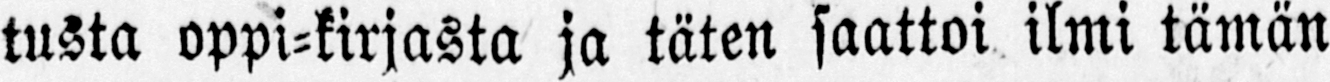tusta oppi-kirjasta ja täten saattoi ilmi tämän
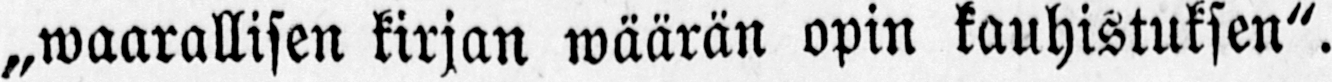„waarallisen kirjan wäärän opin kauhistuksen".
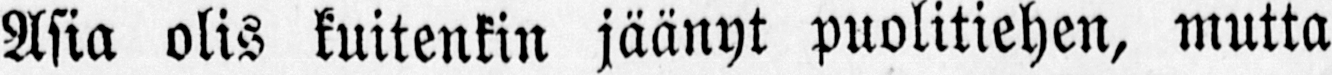Asia olis kuitenkin jäänyt puolitiehen, mutta
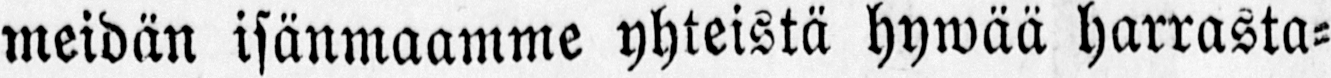meidän isänmaamme yhteistä hywää harrasta-
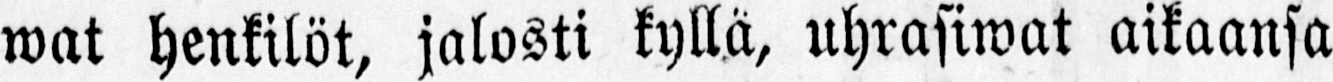wat henkilöt, jalosti kyllä, uhrasiwat aikaansa
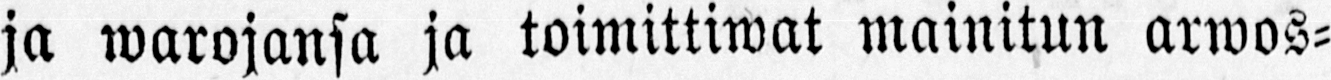ja warojansa ja toimittiwat mainitun arwos-
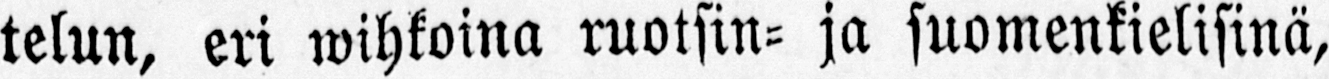telun, eri wihkoina ruotsin- ja suomenkielisinä,
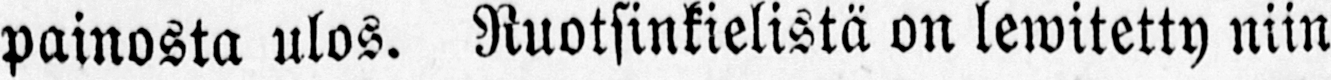painosta ulos. Ruotsinkielistä on lewitetty niin
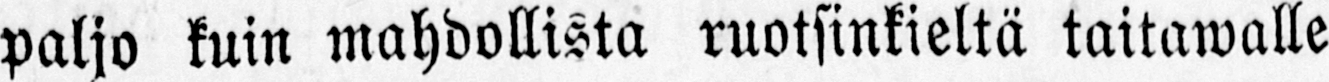paljo kuin mahdollista ruotsinkieltä taitawalle
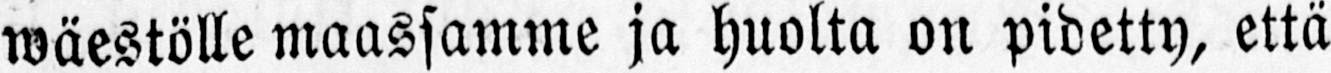wäestölle maassamme ja huolta on pidetty, että
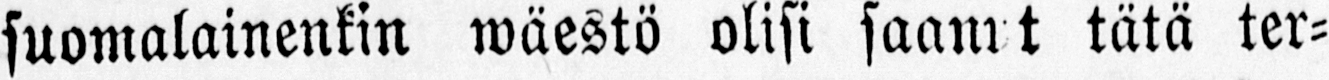suomalainenkin wäestä olisi saannt tätä ter-
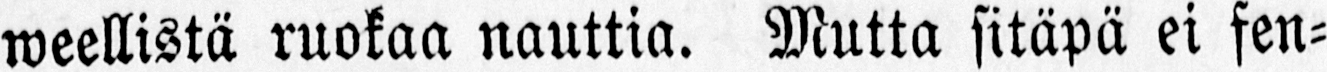weellistä ruokaa nauttia. Mutta sitäpä ei fen-
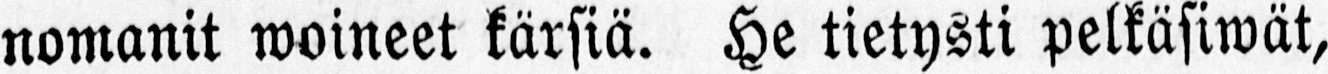nomanit woineet kärsiä. He tietysti pelkäsiwät,
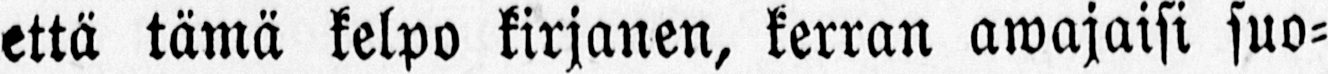että tämä kelpo kirjanen, kerran awajaisi suo-
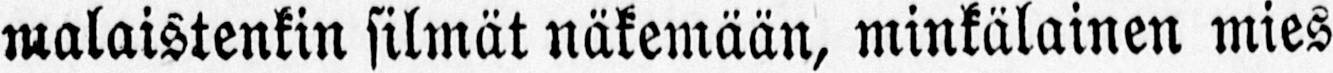malaistenkin silmät näkemään, minkälainen mies
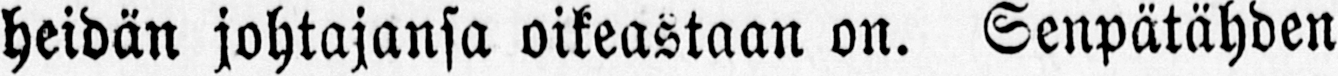heidän johtajansa oikeastaan on. Senpätähden
